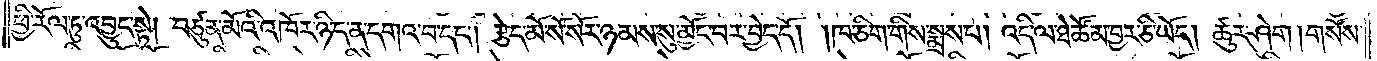ཕྱི་རོལ་ཏུ་འབྱུང་སྟེ། བཙུན་མོའི་འཁོར་ཉིད་ན་དགའ་བ་དང༌། རྩེད་མོ་སོ་སོར་ཉམས་སུ་མྱོང་བར་བྱེད་དོ། །ཁ་ཅིག་གིས་སྨྲས་པ། འདི་ལ་ཐེ་ཚོམ་བྱར་ཅི་ཡོད། ཚུར་ཤེག །གསོས་
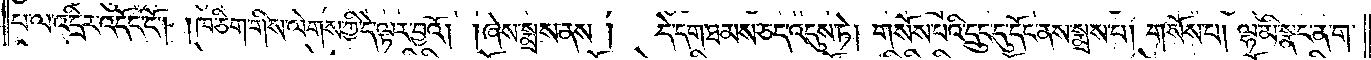པ་ལ་འདྲིར་འདོང་ངོ༌། །ཁ་ཅིག་གིས་ལེགས་ཀྱི་དེ་ལྟར་བྱའོ། །ཞེས་སྨྲས་ན། དེ་དག་ཐམས་ཅད་འདུས་ཏེ། གསོས་པའི་དྲུང་དུ་དོང་ནས་སྨྲས་པ། གསོས་པ། ལྷ་མི་སྣང་ན་ག་
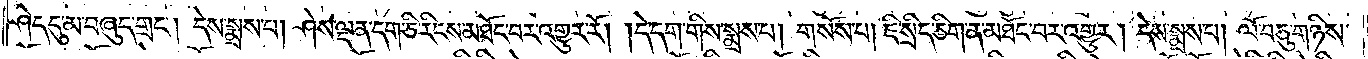ཤེད་དུ་མ་བཞུད་གྲང༌། དེས་སྨྲས་པ། ཤེས་ལྡན་དག་ཅི་རིངས་མཐོང་བར་འགྱུར་རོ། །དེ་དག་གིས་སྨྲས་པ། གསོས་པ། ཇི་སྲིད་ཅིག་ན་མཐོང་བར་འགྱུར། དེས་སྨྲས་པ། ལོ་བཅུ་གཉིས་
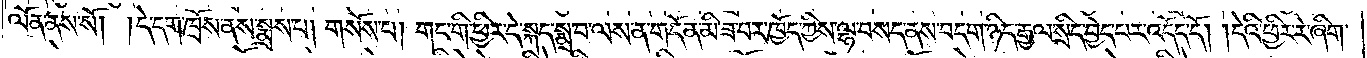ལོན་ནས་སོ། །དེ་དག་ཁྲོས་ནས་སྨྲས་པ། གསོས་པ། གང་གི་ཕྱིར་དེ་སྐད་སྨྲ་བ་ལས་ན་གདོན་མི་ཟ་བར་ཁྱོད་ཀྱིས་ལྷ་བསད་ནས་བདག་ཉིད་རྒྱལ་སྲིད་བྱེད་པར་འདོད་དོ། །དེའི་ཕྱིར་རེ་ཞིག་
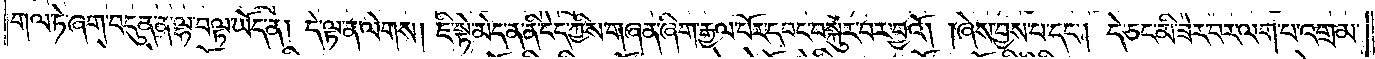གལ་ཏེ་ཞག་བདུན་ན་ལྷ་བལྟ་ཡོད་ན། དེ་ལྟ་ན་ལེགས། ཇི་སྟེ་མེད་ན་ནི་ངེད་ཀྱིས་གཞན་ཞིག་རྒྱལ་པོར་དབང་བསྐུར་བར་བྱའོ། །ཞེས་བྱས་པ་དང༌། དེ་ཅང་མི་ཟེར་བར་ལག་པ་འགྲམ་
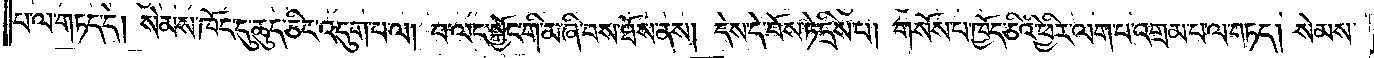པ་ལ་གཏད་དེ། སེམས་ཁོང་དུ་ཆུད་ཅིང་འདུག་པ་ལ། བ་ལང་སྐྱོང་གི་མ་ཞི་བས་ཐོས་ནས། དེས་དེ་བོས་ཏེ་དྲིས་པ། གསོས་པ་ཁྱོད་ཅིའི་ཕྱིར་ལག་པ་འགྲམ་པ་ལ་གཏད། སེམས་
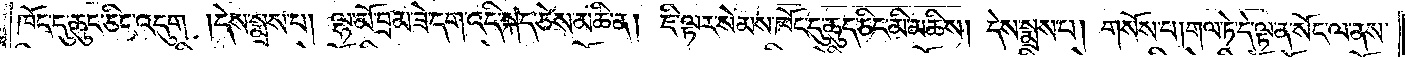ཁོང་དུ་ཆུང་ཅིང་འདུག །དེས་སྨྲས་པ། ལྷ་མོ་བྲམ་ཟེ་དག་འདི་སྐད་ཅེས་མཆི་ན། ཇི་ལྟར་སེམས་ཁོང་དུ་ཆུད་ཅིང་མི་མཆིས། དེས་སྨྲས་པ། གསོས་པ། གལ་ཏེ་དེ་ལྟ་ན་སོང་ལ་ནས་
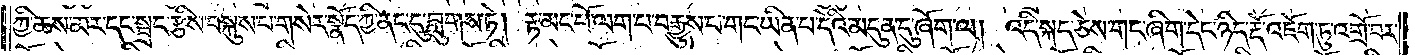ཀྱི་ཆས་མར་དང་སྦྲང་རྩིས་བསྐུས་པ་གསེར་སྣོད་ཀྱི་ནང་དུ་བླུགས་ཏེ། རྟ་མང་པོ་ལག་པ་བརྒྱུས་པ་གང་ཡིན་པ་དེའི་མདུན་དུ་ཞོག་ལ། འདི་སྐད་ཅེས་གང་ཞིག་དེང་ཉིད་རྡོ་འཇོག་ཏུ་འགྲོ་བར་
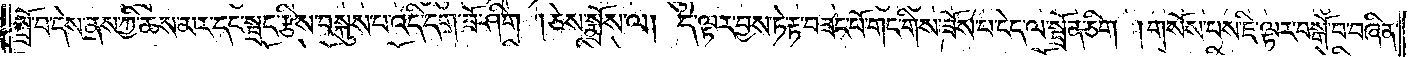སྤྲོ་བ་དེས་ནས་ཀྱི་ཆས་མར་དང་སྦྲང་རྩིས་བསྐུས་པ་འདི་དག་ཟོ་ཤིག །ཅེས་སྨྲོས་ལ། དེ་ལྟར་བྱས་ཏེ་རྟ་བཟང་པོ་གང་གིས་ཟོས་པ་ངེད་ལ་སྦྲོན་ཅིག །གསོས་པས་ཇི་ལྟར་བསྒོ་བ་བཞིན་
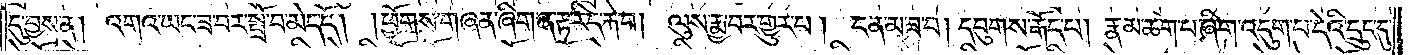དུ་བྱས་ན། འགའ་ཡང་ཟ་བར་སྤྲོ་བ་མེད་དོ། །ཕྱོགས་གཞན་ཞིག་ཞིག་ན་རྟ་རིད་རྐེ་བ། ལུས་རྨྱ་བར་གྱུར་པ། ངན་མ་ཟ་བ། དབུགས་རྒོད་པ། རྣམ་ཆག་པ་ཞིག་འདུག་པ་དེའི་དྲུང་དུ་
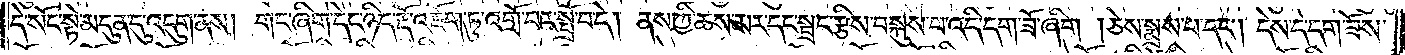དེ་སོང་སྟེ་མདུན་དུ་འདུག་ནས། གང་ཞིག་དེང་ཉིད་རྡོ་འཇོག་ཏུ་འགྲོ་བར་སྤྲོ་བ་དེ། ནས་ཀྱི་ཆས་མར་དང་སྦྲང་རྩིས་བསྐུས་པ་འདི་དག་ཟོ་ཞིག །ཅེས་སྨྲས་པ་དང༌། དེས་དེ་དག་ཟོས་
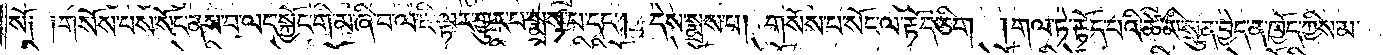སོ༑ ༑གསོས་པས་སོང་ནས་བ་ལང་སྐྱོང་གི་མ་ཞི་བ་ལ་ཇི་ལྟར་གྱུར་པ་སྨྲས་པ་དང༌། དེས་སྨྲས་པ། གསོས་པ་སོང་ལ་རྟོད་ཅིག །གལ་ཏེ་རྟོད་པའི་ཚེ་མི་སྲུན་བྱེད་ན་ཁྱོད་ཀྱིས་མ་
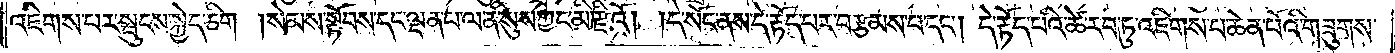འཇིགས་པར་སྤུངས་སྐྱེད་ཅིག །སེམས་སྟོབས་དང་ལྡན་པ་ལ་ནི་སུས་ཀྱང་མི་རྫིའོ། །དེ་སོང་ནས་དེ་རྟོད་པར་བརྩམས་པ་དང༌། དེ་རྟོད་པའི་ཚེ་རབ་ཏུ་འཇིགས་པ་ཆེན་པོའི་གཟུགས་
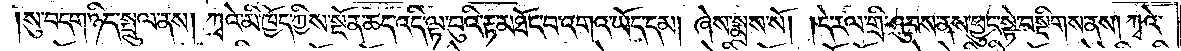།སུ་བདག་ཉིད་སྤྲུལ་ནས། ཀྭའེ་མི་ཁྱོད་ཀྱིས་སྔོན་ཆད་འདི་ལྟ་བུའི་རྟ་མཐོང་བ་འགའ་ཡོད་དམ། ཞེས་སྨྲས་སོ། །དེ་རལ་གྲི་ཤུབས་ནས་ཕྱུང་སྟེ་བསྡིགས་ནས། ཀྭའེ་
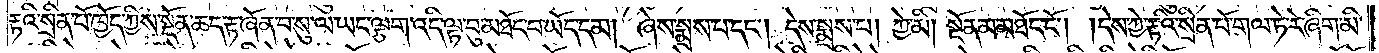རྟའི་སྲིན་པོ་ཁྱོད་ཀྱིས་སྔོན་ཆད་རྟ་ཞོན་བ་སུ་ལ་ཡང་ལྕག་འདི་ལྟ་བུ་མཐོང་བ་ཡོད་དམ། ཞེས་སྨྲས་པ་དང༌། དེས་སྨྲས་པ། ཀྱེ་མི། སྔོན་མ་མཐོང་ངོ༌། །དེས་ཀྱེ་རྟའི་སྲིན་པོ་གལ་ཏེ་རེ་ཞིག་མི་
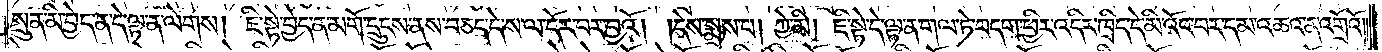སྲུན་མི་བྱེད་ན་དེ་ལྟ་ན་ལེགས། ཇི་སྟེ་བྱེད་ན་མགོ་དྲུངས་ནས་བཅད་དེ་ས་ལ་དོར་བར་བྱའོ། །དེས་སྨྲས་བ། ཀྱེ་མི། ཇི་སྟེ་དེ་ལྟ་ན་གལ་ཏེ་བདག་ཕྱིར་འདིར་ཁྲིད་དེ་མི་འོང་བར་དམ་འཆའ་ན་འགྲོའོ༎
